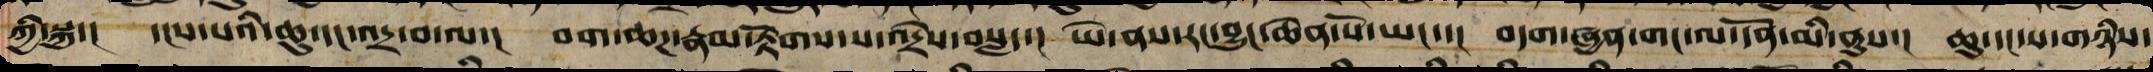ཀྱི་སྐུ་།  དངས་པའི་ཆུ་དང་འདྲ་བ་ལ་།  བག་ཆཌ་རྣམ་རྟོགས་ས་འདྲེས་བསླད་།  ཡེ་ནས་རང་བྱུང་ཆེན་པོ་ཡང་་།  བདག་ཞྱན་གང་ལ་དོན་མི་ནུས་།  ཆུ་དང་ས་གཉིས་
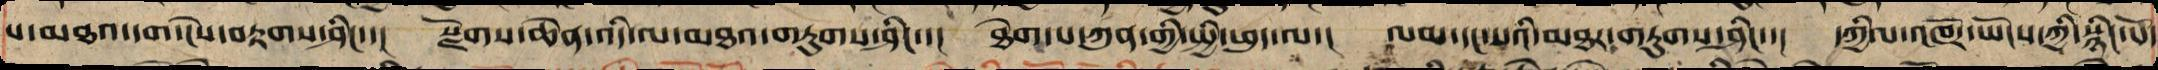པ་མཐའ་དག་ངེས་བརྟགས་ཤིང་་། སྫོགས་ཆེན་འདི་ལ་མཐར་གཏུགས་ཤིང་་། ཐེག་པ་ཀུན་གྱི་སྤྱི་ཕུད་ལ་། ལམ་དང་སའི་མཐར་གཏུགས་ཤིང་་། དཀྱིལ་འཁོར་ཡོངས་ཀྱི་སྙིང་པོ་
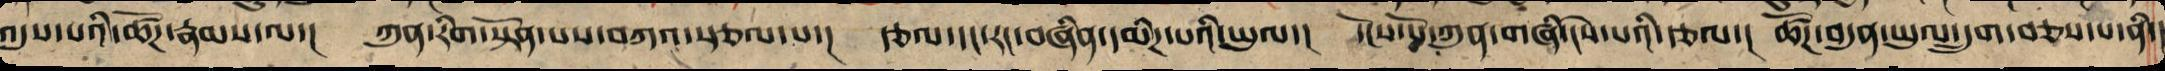འདུས་པའི་ཚོཌ་རྣམས་ལ་།  ཀུན་རིག་སྟོན་པས་བཀའ་སྩལ་པ་།  རྩལ་དང་རང་བཞིན་དམིཌ་པའི་ཡུལ་།  དངོས་པོ་ཀུན་གཞི་ངེས་པའི་རྩལ་།  ཚོཌ་བདུན་ཡུལ་དྲུག་བཅས་པ་ནི་།
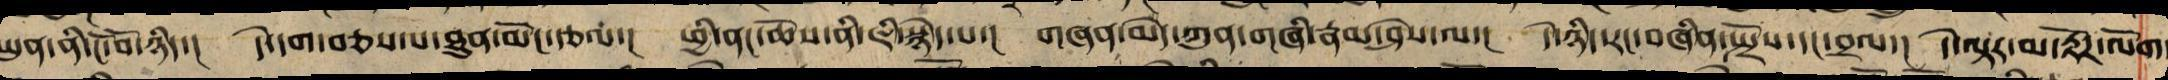ཡུལ་ནི་ངོ་བོ་ཉིད་། དེ་དག་བཅས་པ་ཐུན་མོང་རྩལ་། ཕྱི་ནང་ཆོས་ནི་ཇི་སྙེད་པ་། གཞན་མང་ཀུན་གཞི་རྣམ་ཤེས་ལ་། དེ་ཉིད་རང་བཞིན་སྤྲོས་དང་བྲལ་། དེ་ལྟར་མ་རྟོཌ་ལོག་
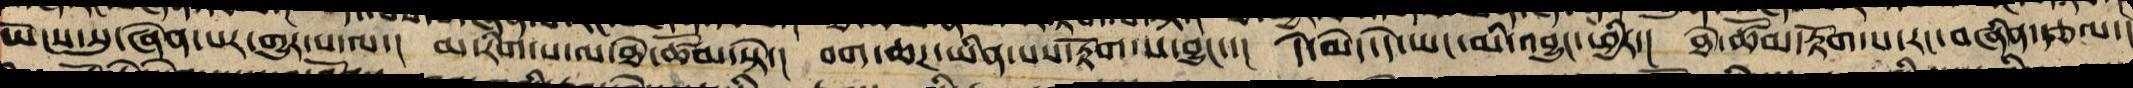ཡོངས་སུ་ཞེན་པར་གྱུར་པ་ལ་། མ་རིག་པ་ལ་ཐེ་ཚོམ་སྟེ་། བག་ཆཌ་ཡིན་པའི་རྟོག་པ་བྱུང་་། དེ་མེད་དེ་ཡང་མི་འབྱུང་ཕྱིར་། ཐེ་ཚོམ་རྟོག་པ་རང་བཞིན་རྩལ་།
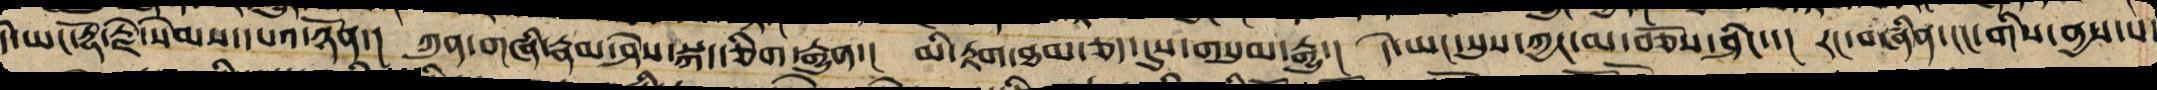དེ་ཡང་རྡོ་རྗེ་སེམས་དཔའ་ཉོན་། ཀུན་གཞི་རྣམ་ཤེས་སྐད་ཅིག་རྒྱུན་། མི་རྟག་ཐམ་ཅད་དུས་གསུམ་རྒྱུ་། དེ་ཡང་སུས་ཀྱང་མ་བཅོས་ཤིང་་། རང་བཞིན་ངང་གིས་ནྱས་པ་
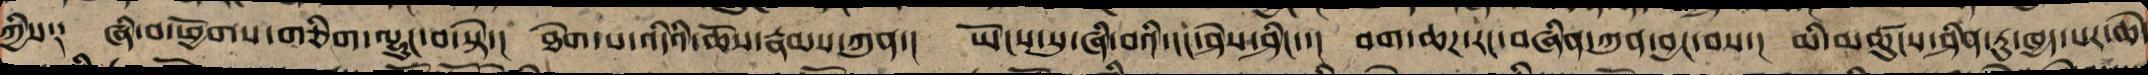ཀྱིས༑ ཞི་བ་ཕྱོགས་གཅིག་ལྷུང་བ་སྟེ་། ཐེག་པ་འདིའི་ཆོས་རྣམས་ཀུན་། ཡོངས་སུ་ཞི་བའི་ངང་ཤེས་ཤིང་་། བག་ཆཌ་རང་བཞིན་ཀུན་བྱང་བས་། མི་མཚུངས་ཤིན་ཏུ་ཁྱད་པར་ཆེ
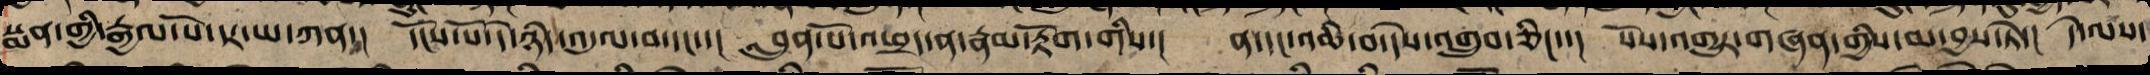སྨན་གྱི་རྒྱལ་པོ་དར་ཡ་ཀན་། དངོས་པོ་དེ་ཉིད་འདུལ་བ་དང་་། བླུན་པོ་འཕྲད་ན་རྣམ་རྟོག་གིས་། ན་དང་འཆི་བ་དེས་འགྲུབ་ཅིང་་། སོས་འགྱུར་གཞན་གྱིས་མ་བྱས་ཏེ་། དེ་ལས་
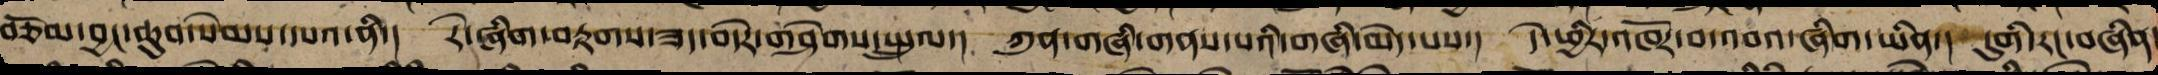བཅོམ་བྱང་ཆུབ་སེམས་དཔའ་ནི་། རེ་ཞིག་བརྟགས་ཟད་བདེར་གཤེགས་སྤྲུལ་། ཀུན་གཞི་གནས་པའི་གཞི་མེད་པས་། དེ་ཕྱིར་འཁོར་བ་འབའ་ཞིག་ཡིན། དུགི་རང་བཞིན་
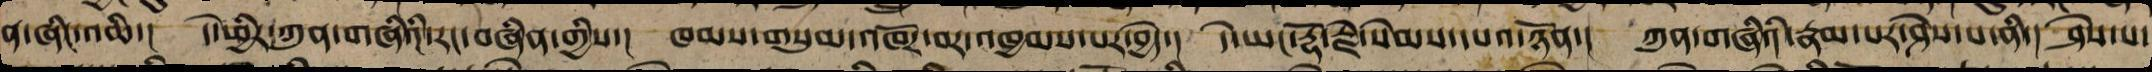ན་ཞིང་འཆི་། དེ་ཕྱིར་ཀུན་གཞིའི་རང་བཞིན་གྱིས་། ཁམས་གསུམ་འཁོར་བར་འཁྱམས་པར་བྱེད་། དེ་ཡང་རྡོ་རྗེ་སེམས་དཔའ་ཉོན་། ཀུན་གཞིའི་རྣམ་པར་ཤེས་པ་ནི་། ཤེས་པ་
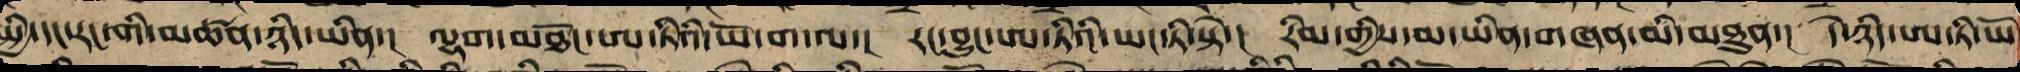སྤྱི་དང་རང་གི་མཚན་ཉིད་ཡིན་། ལྷག་མཐོང་ཨ་ཏིའི་ཡོ་ག་ལ་། རང་བྱུང་ཨ་ཏིའི་ཡང་ཏི་སྟེ་། རིམ་གྱིས་མ་ཡིན་གཞན་མི་མཐུན་། དེ་ཉིད་ཨ་ཏི་ཡོ
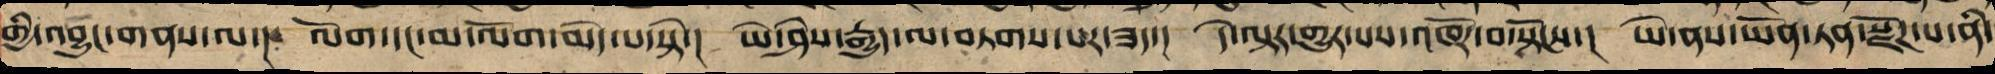གྱི་འབྱུང་གནས་ལ་། ལོག་དང་མ་ལོག་མེད་པ་སྟེ་། ཡེ་ཤེས་རྒྱུན་ལ་བཏགས་པར་ཟད་། དེ་ལྟར་གྱུར་པས་འཁོར་བ་སྟོངས་། ཡེ་ནས་ཡོན་ཏན་སྫོཌ་པ་ནི་
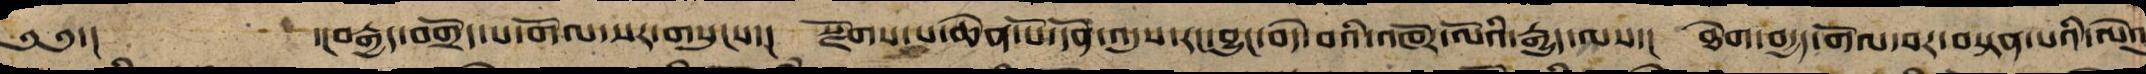༄༅་། ་།བརྒྱད་བགྲོད་པ་གོལ་སར་གསུངས་། སྫོགས་པ་ཆེན་པོ་དོན་འདུས་རང་བྱུང་བདེ་བའི་འཁོར་ལོའི་རྒྱུད་ལས་། ཐེག་བརྒྱད་གོལ་བར་བསྟན་པའི་ལེའུ
